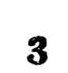3
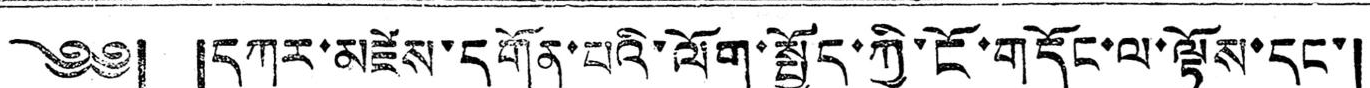༄༅། །དཀར་མཛེས་དགོན་པའི་ལོག་སྤྱོད་ཀྱི་ངོ་གདོང་ལ་སྟོས་དང་།
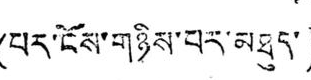(པར་ངོས་གཉིས་པར་མཐུད་)
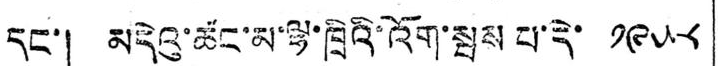དང་། མདེའུ་ཚང་མ་ལྷ་ཁྲིའི་འོག་སྦས པ་དེ་ ༡༩༥༨
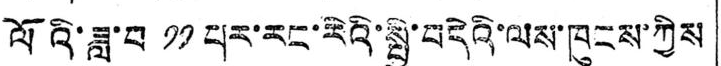ལོའི་ཟླ་བ ༡༡ པར་རང་རེའི་སྤྱི་བདེའི་ལས་ཁུངས་ཀྱིས
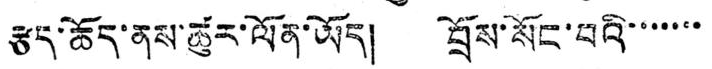རྩད་ཆོད་ནས་ཚུར་ལོན་ཡོད། བྲོས་སོང་བའི་་་་་་་
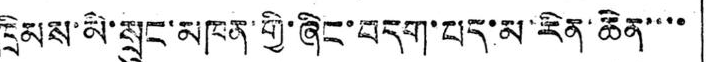ཁྲིམས་མི་སྲུང་མཁན་གྱི་ཞིང་བདག་པར་མ་རིན་ཆེན་་་་
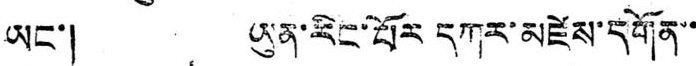ཡང་། ཡུན་རིང་པོར དཀར་མཛེས་དགོན་་
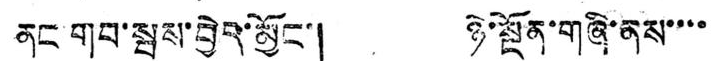ནང་གབ་སྦས་བྱེད་མྱོང་། ཉེ་སྔོན་གཞི་ནས་་་་
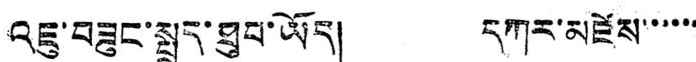འཇུ་བཟུང་སྤྲད་ཐུབ་ཡོད། དཀར་མཛེས་་་་་་
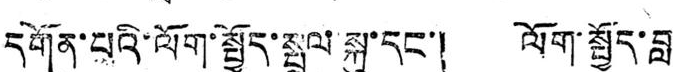དགོན་པའི་ལོག་སྤྱོད་སྤྲུལ་སྐུ་དང་། ལོག་སྤྱོད་བླ་་
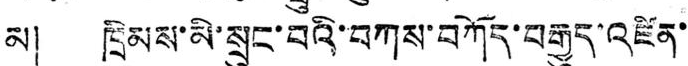མ། ཁྲིམས་མི་སྲུང་བའི་བཀས་བཀོད་བརྒྱུད་འཛིན་་
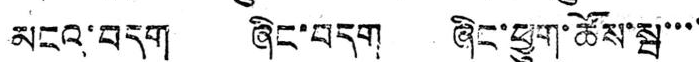མངའ་བདག ཞིང་བདག ཞིང་ཕྱུག་ཚོས་སྦ་་་་
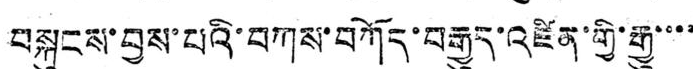བསྐུངས་བྱས་པའི་བཀས་བཀོད་བརྒྱུད་འཛིན་གྱི་རྒྱུ་་་་
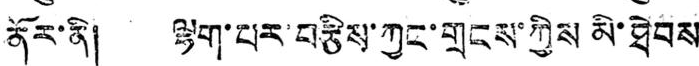ནོར་ནི། ལྷག་པར་བརྩིས་ཀྱང་གྲངས་ཀྱིས མི་ཐེབས
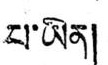པ་ཡིན།
